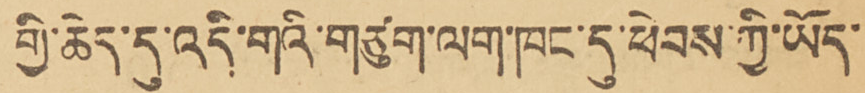གྱི་ཆེད་དུ་འདི་གའི་གཙུག་ལག་ཁང་དུ་ཕེབས་ཀྱི་ཡོད་
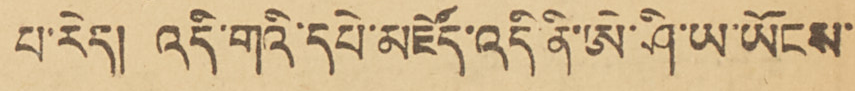པ་རེད། འདི་གའི་དཔེ་མཛོད་འདི་ནི་ཨེ་ཤི་ཡ་ཡོངས་
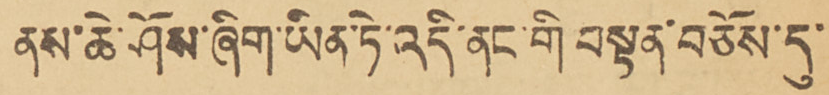ནས་ཆེ་ཤོས་ཞིག་ཡིན་ཏེ་འདི་ནང་གི བསྟན་བཅོས་དུ་
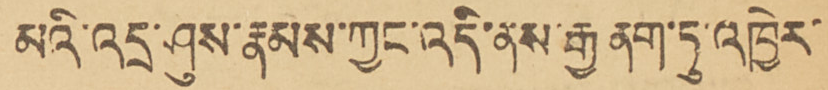མའི་འདྲ་ཤུས་རྣམས་ཀྱང་འདི་ནས་རྒྱ ནག་ཏུ་འཁྱེར་
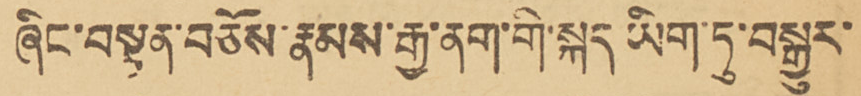ཞིང་བསྟན་བཅོས་རྣམས་རྒྱ་ནག་གི་སྐད ཡིག་ཏུ་བསྒྱུར་
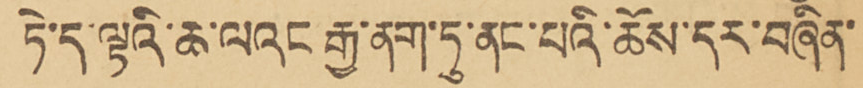ཏེ་ད་ལྟའི་ཆ་ལའང རྒྱ་ནག་ཏུ་ནང་པའི་ཆོས་དར་བཞིན་
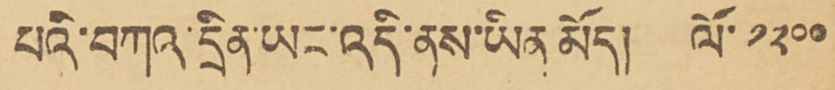པའི་བཀའ་དྲིན་ཡང་འདི་ནས་ཡིན མོད། ལོ་ ༡༢༠༠
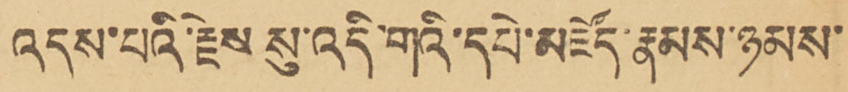འདས་པའི་རྗེས སུ་འདི་གའི་དཔེ་མཛོད་རྣམས་ཉམས་
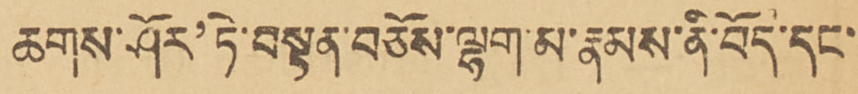ཆགས་ཤོར'ཏེ་བསྟན་བཅོས་ལྷག་མ་རྣམས་ནི་བོད་དང་
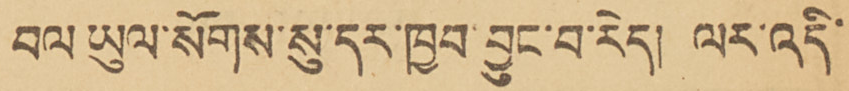བལ ཡུལ་སོགས་སུ་དར་ཁྱབ་བྱུང་བ་རེད། ལར་འདི་
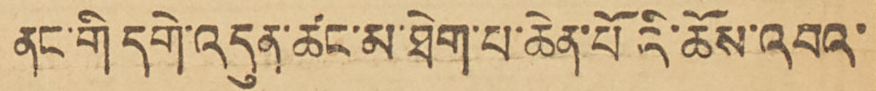ནང་གི དགེ་འདུན་ཚང་མ་ཐེག་པ་ཆེན་པོའི་ཆོས་འབའ་
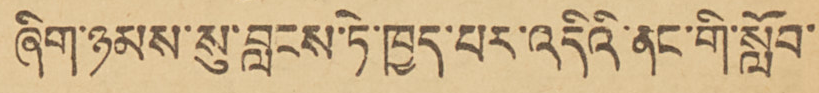ཞིག་ཉམས་སུ་བླངས་ཏེ་ཁྱད་པར་འདིའི་ནང་གི་སློབ་
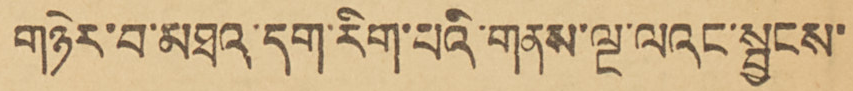གཉེར་བ་མཐའ་དག་རིག་པའི་གནས་ལྔ་ལའང་སྦྱངས་
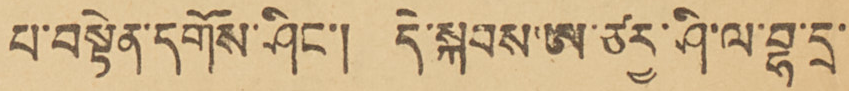པ་བསྟེན་དགོས་ཤིང་། དེ་སྐབས་ཨ་ཙྱ་ཤི་ལ་བྷ་དྲ་
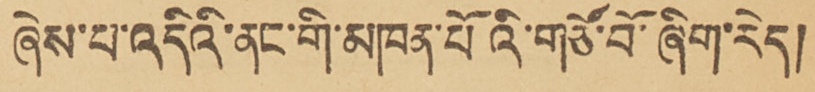ཞེས་པ་འདིའི་ནང་གི་མཁན་པོའི་གཙོ་བོ་ཞིག་རེད།
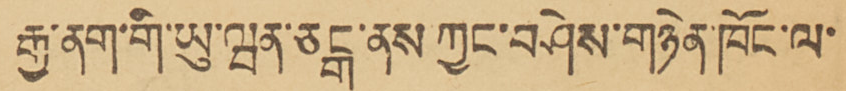རྒྱ་ནག་གི་ཡུ་ཝན་ཅངྒ་ནས ཀྱང་བཤེས་གཉེན་ཁོང་ལ་
